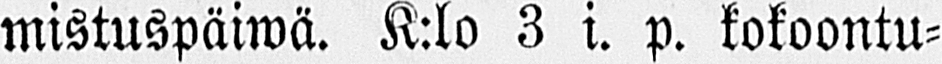mistuspäiwä. K:lo 3 i. p. kokoontu-
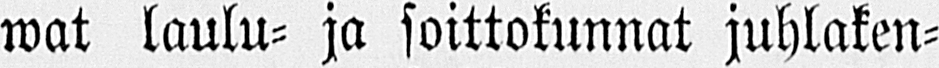wat laulu- ja soittokunnat juhlaken-
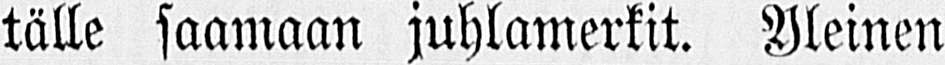tälle saamaan juhlamerkit. Yleinen
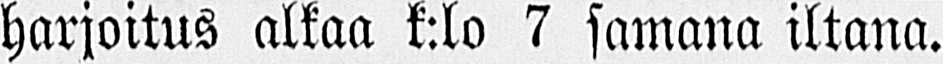harjoitus alkaa k:lo 7 samana iltana.
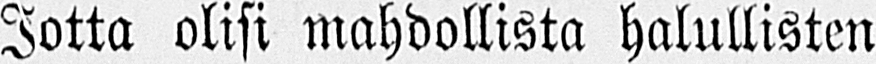Jotta olisi mahdollista halullisten
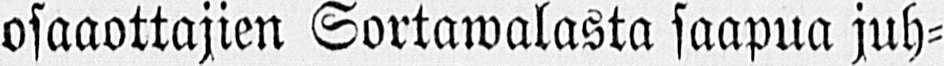osaaottajien Sortawalasta saapua juh-
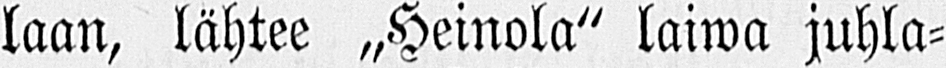laan, lähtee „Heinola" laiwa juhla-
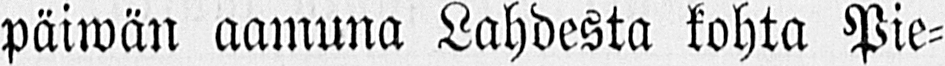päiwän aamuna Lahdesta kohta Pie-
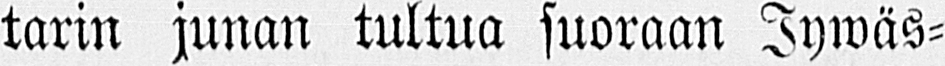tarin junan tultua suoraan Jywäs-
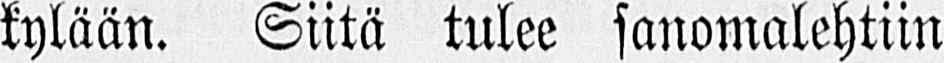kylään. Siitä tulee sanomalehtiin
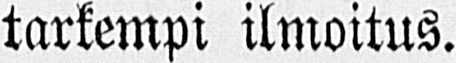tarkempi ilmoitus.
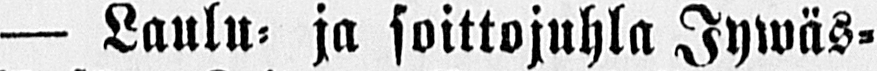— Laulu- ja soittojuhla Jywäs-
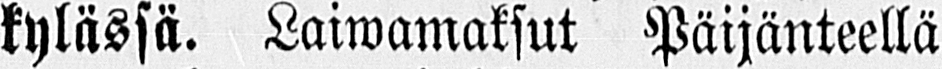kylässä. Laiwamaksut Päijänteellä
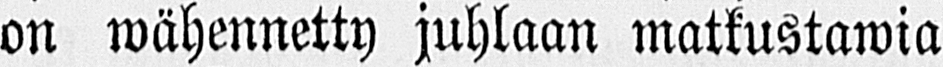on wähennetty juhlaan matkustawia
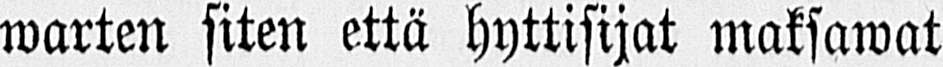warten siten että hyttisijat maksawat
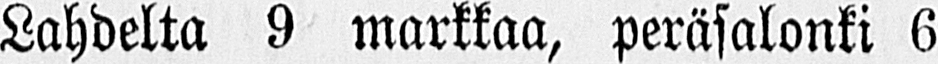Lahdelta 9 markkaa, peräsalonki 6
